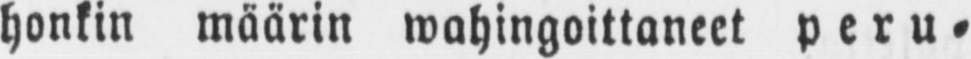honkin määrin wahingoittaneet peru-
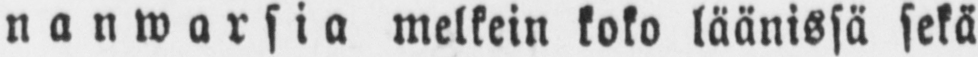nanwarsia melkein koko läänissä sekä
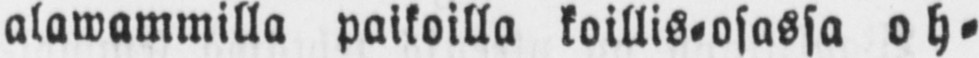alawammilla paikoilla koillis-osassa oh-
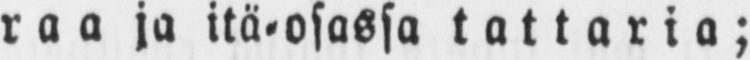raa ja itä-osassa tattaria;
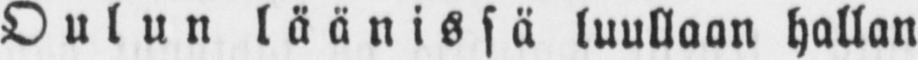Oulun läänissä luullaan hallan
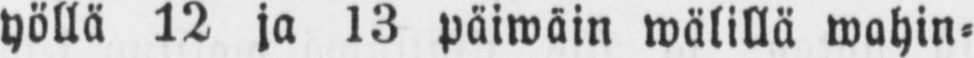yöllä 12 ja 13 päiwäin wälillä wahin-
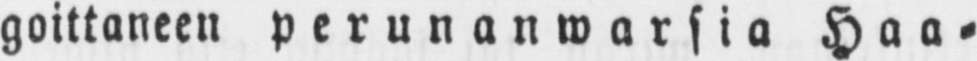goittaneen perunanwarsia Haa-
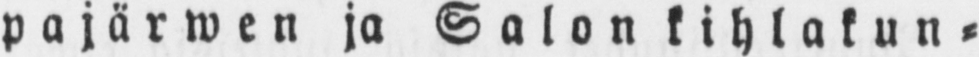pajärwen ja Salon kihlakun-
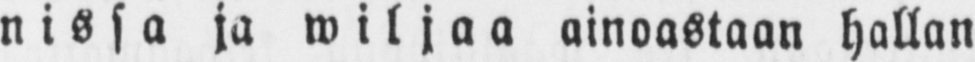nissa ja wiljaa ainoastaan hallan
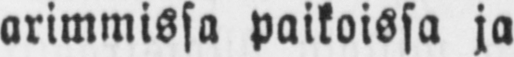arimmissa paikoissa ja
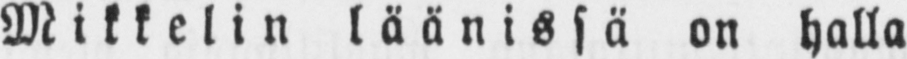Mikkelin läänissä on halla
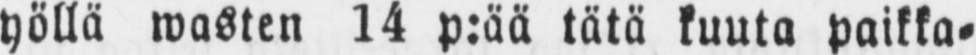yöllä wasten 14 p:ää tätä kuuta paikka-
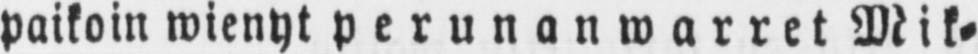paikoin wienyt perunanwarret Mik-
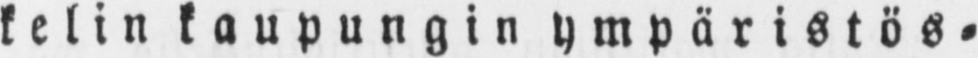kelin kaupungin ympäristös-
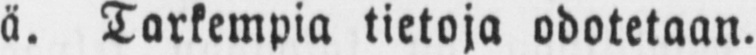sä. Tarkempia tietoja odotetaan.
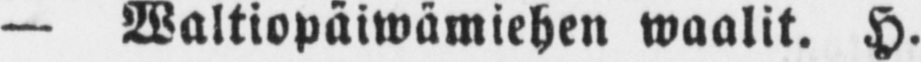— Waltiopäiwämiehen waalit. H.
